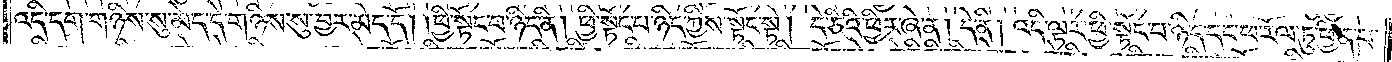འདི་དག་གཉིས་སུ་མེད་དེ་གཉིས་སུ་བྱར་མེད་དོ། །ཕྱི་སྟོང་པ་ཉིད་ནི། ཕྱི་སྟོང་པ་ཉིད་ཀྱིས་སྟོང་སྟེ། དེ་ཅིའི་ཕྱིར་ཞེ་ན། དེ་ནི། འདི་ལྟར་ཕྱི་སྟོང་པ་ཉིད་དང་ཕ་རོལ་ཏུ་ཕྱིན་པ་
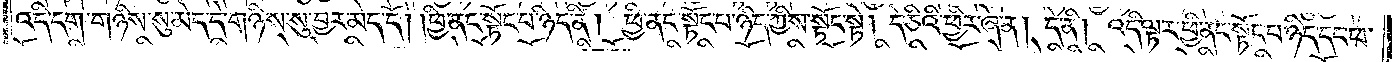འདི་དག་གཉིས་སུ་མེད་དེ་གཉིས་སུ་བྱར་མེད་དོ། །ཕྱི་ནང་སྟོང་པ་ཉིད་ནི། ཕྱི་ནང་སྟོང་པ་ཉིད་ཀྱིས་སྟོང་སྟེ། དེ་ཅིའི་ཕྱིར་ཞེ་ན། དེ་ནི། འདི་ལྟར་ཕྱི་ནང་སྟོང་པ་ཉིད་དང་ཕ་
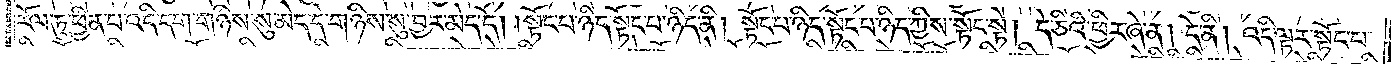རོལ་ཏུ་ཕྱིན་པ་འདི་དག་གཉིས་སུ་མེད་དེ་གཉིས་སུ་བྱར་མེད་དོ། །སྟོང་པ་ཉིད་སྟོང་པ་ཉིད་ནི། སྟོང་པ་ཉིད་སྟོང་པ་ཉིད་ཀྱིས་སྟོང་སྟེ། དེ་ཅིའི་ཕྱིར་ཞེ་ན། དེ་ནི། འདི་ལྟར་སྟོང་པ་
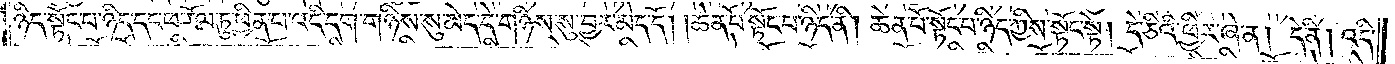ཉིད་སྟོང་པ་ཉིད་དང་ཕ་རོལ་ཏུ་ཕྱིན་པ་འདི་དག་གཉིས་སུ་མེད་དེ་གཉིས་སུ་བྱར་མེད་དོ། །ཆེན་པོ་སྟོང་པ་ཉིད་ནི། ཆེན་པོ་སྟོང་པ་ཉིད་ཀྱིས་སྟོང་སྟེ། དེ་ཅིའི་ཕྱིར་ཞེ་ན། དེ་ནི། འདི་
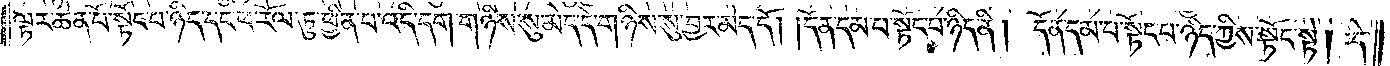ལྟར་ཆེན་པོ་སྟོང་པ་ཉིད་དང་ཕ་རོལ་ཏུ་ཕྱིན་པ་འདི་དག་གཉིས་སུ་མེད་དེ་གཉིས་སུ་བྱར་མེད་དོ། །དོན་དམ་པ་སྟོང་པ་ཉིད་ནི། དོན་དམ་པ་སྟོང་པ་ཉིད་ཀྱིས་སྟོང་སྟེ། དེ་
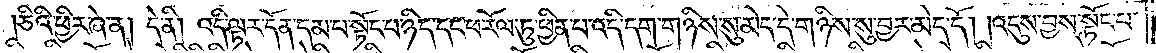ཅིའི་ཕྱིར་ཞེ་ན། དེ་ནི། འདི་ལྟར་དོན་དམ་པ་སྟོང་པ་ཉིད་དང་ཕ་རོལ་ཏུ་ཕྱིན་པ་འདི་དག་གཉིས་སུ་མེད་དེ་གཉིས་སུ་བྱར་མེད་དོ། །འདུས་བྱས་སྟོང་པ་
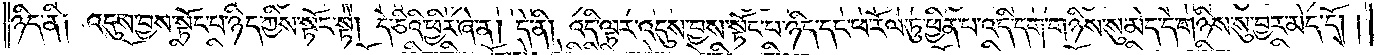ཉིད་ནི། འདུས་བྱས་སྟོང་པ་ཉིད་ཀྱིས་སྟོང་སྟེ། དེ་ཅིའི་ཕྱིར་ཞེ་ན། དེ་ནི། འདི་ལྟར་འདུས་བྱས་སྟོང་པ་ཉིད་དང་ཕ་རོལ་ཏུ་ཕྱིན་པ་འདི་དག་གཉིས་སུ་མེད་དེ་གཉིས་སུ་བྱར་མེད་དོ། །
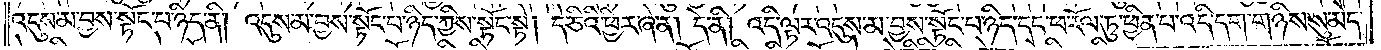འདུས་མ་བྱས་སྟོང་པ་ཉིད་ནི། འདུས་མ་བྱས་སྟོང་པ་ཉིད་ཀྱིས་སྟོང་སྟེ། དེ་ཅིའི་ཕྱིར་ཞེ་ན། དེ་ནི། འདི་ལྟར་འདུས་མ་བྱས་སྟོང་པ་ཉིད་དང་ཕ་རོལ་ཏུ་ཕྱིན་པ་འདི་དག་གཉིས་སུ་མེད་
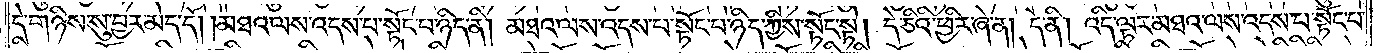དེ་གཉིས་སུ་བྱར་མེད་དོ། །མཐའ་ལས་འདས་པ་སྟོང་པ་ཉིད་ནི། མཐའ་ལས་འདས་པ་སྟོང་པ་ཉིད་ཀྱིས་སྟོང་སྟེ། དེ་ཅིའི་ཕྱིར་ཞེ་ན། དེ་ནི། འདི་ལྟར་མཐའ་ལས་འདས་པ་སྟོང་པ་
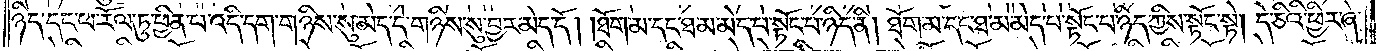ཉིད་དང་ཕ་རོལ་ཏུ་ཕྱིན་པ་འདི་དག་གཉིས་སུ་མེད་དེ་གཉིས་སུ་བྱར་མེད་དོ། །ཐོག་མ་དང་ཐ་མ་མེད་པ་སྟོང་པ་ཉིད་ནི། ཐོག་མ་དང་ཐ་མ་མེད་པ་སྟོང་པ་ཉིད་ཀྱིས་སྟོང་སྟེ། དེ་ཅིའི་ཕྱིར་ཞེ་
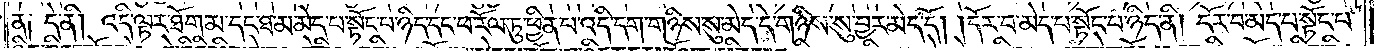ན༑ དེ་ནི། འདི་ལྟར་ཐོག་མ་དང་ཐ་མ་མེད་པ་སྟོང་པ་ཉིད་དང་ཕ་རོལ་ཏུ་ཕྱིན་པ་འདི་དག་གཉིས་སུ་མེད་དེ་གཉིས་སུ་བྱར་མེད་དོ། །དོར་བ་མེད་པ་སྟོང་པ་ཉིད་ནི། དོར་བ་མེད་པ་སྟོང་པ་
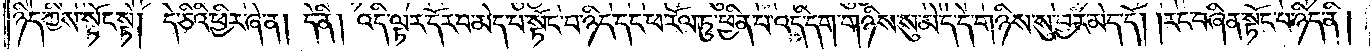ཉིད་ཀྱིས་སྟོང་སྟེ། དེ་ཅིའི་ཕྱིར་ཞེ་ན། དེ་ནི། འདི་ལྟར་དོར་བ་མེད་པ་སྟོང་པ་ཉིད་དང་ཕ་རོལ་ཏུ་ཕྱིན་པ་འདི་དག་གཉིས་སུ་མེད་དེ་གཉིས་སུ་བྱར་མེད་དོ། །རང་བཞིན་སྟོང་པ་ཉིད་ནི།
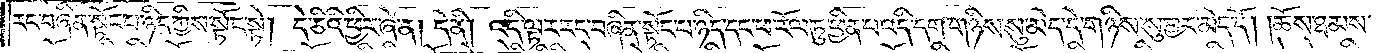རང་བཞིན་སྟོང་པ་ཉིད་ཀྱིས་སྟོང་སྟེ། དེ་ཅིའི་ཕྱིར་ཞེ་ན། དེ་ནི། འདི་ལྟར་རང་བཞིན་སྟོང་པ་ཉིད་དང་ཕ་རོལ་ཏུ་ཕྱིན་པ་འདི་དག་གཉིས་སུ་མེད་དེ་གཉིས་སུ་བྱར་མེད་དོ། །ཆོས་ཐམས་
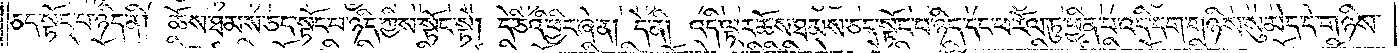ཅད་སྟོང་པ་ཉིད་ནི། ཆོས་ཐམས་ཅད་སྟོང་པ་ཉིད་ཀྱིས་སྟོང་སྟེ། དེ་ཅིའི་ཕྱིར་ཞེ་ན། དེ་ནི། འདི་ལྟར་ཆོས་ཐམས་ཅད་སྟོང་པ་ཉིད་དང་ཕ་རོལ་ཏུ་ཕྱིན་པ་འདི་དག་གཉིས་སུ་མེད་དེ་གཉིས་
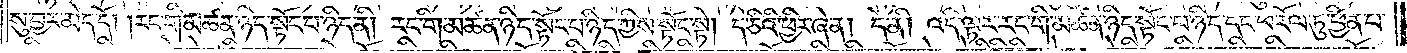སུ་བྱར་མེད་དོ། །རང་གི་མཚན་ཉིད་སྟོང་པ་ཉིད་ནི། རང་གི་མཚན་ཉིད་སྟོང་པ་ཉིད་ཀྱིས་སྟོང་སྟེ། དེ་ཅིའི་ཕྱིར་ཞེ་ན། དེ་ནི། འདི་ལྟར་རང་གི་མཚན་ཉིད་སྟོང་པ་ཉིད་དང་ཕ་རོལ་ཏུ་ཕྱིན་པ་
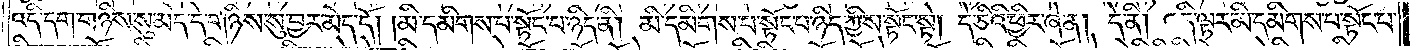འདི་དག་གཉིས་སུ་མེད་དེ་གཉིས་སུ་བྱར་མེད་དོ། །མི་དམིགས་པ་སྟོང་པ་ཉིད་ནི། མི་དམིགས་པ་སྟོང་པ་ཉིད་ཀྱིས་སྟོང་སྟེ། དེ་ཅིའི་ཕྱིར་ཞེ་ན། དེ་ནི། འདི་ལྟར་མི་དམིགས་པ་སྟོང་པ་
